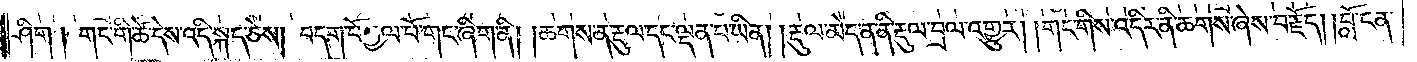ཤིག། གང་གི་ཚེ་དེས་འདི་སྐད་ཅེས། བདག་པོ་རྒྱལ་པོ་གང་ཞིག་ནི། །ཆགས་ན་རྡུལ་དང་ལྡན་པ་ཡིན། །རྡུལ་མེད་ན་ནི་རྡུལ་བྲལ་འགྱུར། གང་གིས་འདིར་ནི་ཆགས་ཞེས་བརྗོད། །བློན་ངན་
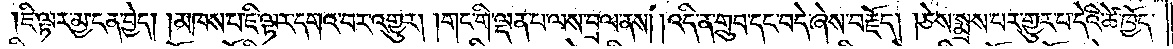ཇི་ལྟར་མྱ་ངན་བྱེད། །མཁས་པ་ཇི་ལྟར་དགའ་བར་འགྱུར། །གང་གི་ལྡན་པ་ལས་བྲལ་ནས། །འདི་ན་གྲུབ་དང་བདེ་ཞེས་བརྗོད། །ཅེས་སྨྲས་པར་གྱུར་པ་དེའི་ཚེ་ཁྱོད་
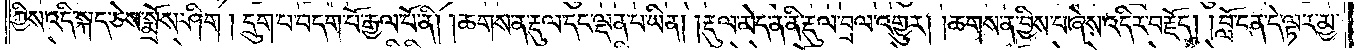ཀྱིས་འདི་སྐད་ཅེས་སྨྲོས་ཤིག །དྲུག་པ་བདག་པོ་རྒྱལ་པོ་ནི། །ཆགས་ན་རྡུལ་དང་ལྡན་པ་ཡིན། །རྡུལ་མེད་ན་ནི་རྡུལ་བྲལ་འགྱུར། །ཆགས་ན་བྱིས་པ་ཞེས་འདིར་བརྗོད། །བློ་ངན་དེ་ལྟར་མྱ་
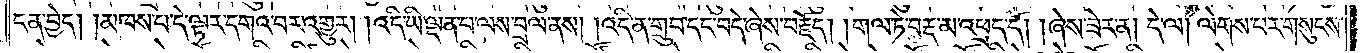ངན་བྱེད། །མཁས་པ་དེ་ལྟར་དགའ་བར་འགྱུར། །འདི་ཡི་ལྡན་པ་ལས་བྲལ་ནས། །འདི་ན་གྲུབ་དང་བདེ་ཞེས་བརྗོད། །གལ་ཏེ་བརྡ་མ་འཕྲད་དོ། །ཞེས་ཟེར་ན། དེ་ལ། ལེགས་པར་གསུངས་
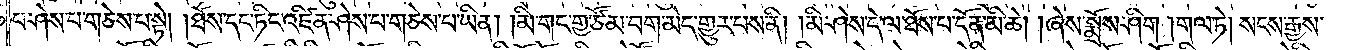པ་ཤེས་པ་གཅེས་པ་སྟེ། །ཐོས་དང་ཏིང་འཛིན་ཤེས་པ་གཅེས་པ་ཡིན། །མི་གང་གྱ་ཙོམ་བག་མེད་གྱུར་པས་ནི། །མི་ཤེས་དེ་ལ་ཐོས་པ་དོན་མི་ཆེ། །ཞེས་སྨྲོས་ཤིག །གལ་ཏེ། སངས་རྒྱས་
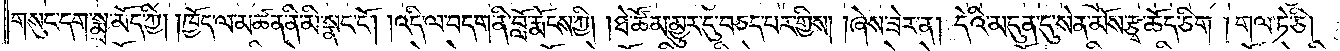གསུང་དག་སྨྲ་མོད་ཀྱི། །ཁྱོད་ལ་མཚན་ནི་མི་སྣང་ངོ༌། །འདི་ལ་བདག་ནི་བློ་རྨོངས་ཀྱི། །ཐེ་ཚོམ་མྱུར་དུ་བཅད་པར་གྱིས། །ཞེས་ཟེར་ན། དེའི་མདུན་དུ་སེན་མོས་རྩྭ་ཆོད་ཅིག །གལ་ཏེ་ཅི།
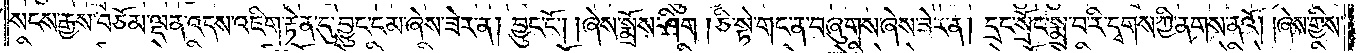སངས་རྒྱས་བཅོམ་ལྡན་འདས་འཇིག་རྟེན་དུ་བྱུང་ངམ་ཞེས་ཟེར་ན། བྱུང་ངོ༌། །ཞེས་སྨྲོས་ཤིག །ཅི་སྟེ་གང་ན་བཞུགས་ཞེས་ཟེར་ན། དྲང་སྲོང་སྨྲ་བ་རི་དྭགས་ཀྱི་ནགས་ནའོ། །ཞེས་གྱིས་
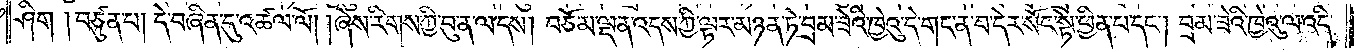ཤིག །བཙུན་པ། དེ་བཞིན་དུ་འཚལ་ལོ། །ཞེས་རིགས་ཀྱི་བུ་ན་ལ་དས། བཅོམ་ལྡན་འདས་ཀྱི་ལྟར་མཉན་ཏེ་བྲམ་ཟེའི་ཁྱེའུ་དེ་གང་ན་བ་དེར་སོང་སྟེ་ཕྱིན་པ་དང༌། བྲམ་ཟེའི་ཁྱེའུ་ལ་འདི་
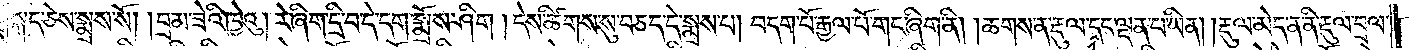སྐད་ཅེས་སྨྲས་སོ། །བྲམ་ཟེའི་ཁྱེའུ། རེ་ཞིག་དྲི་བ་དེ་དག་སྨྲོས་ཤིག །དེས་ཚིགས་སུ་བཅད་དེ་སྨྲས་པ། བདག་པོ་རྒྱལ་པོ་གང་ཞིག་ནི། །ཆགས་ན་རྡུལ་དང་ལྡན་པ་ཡིན། །རྡུལ་མེད་ན་ནི་རྡུལ་བྲལ་
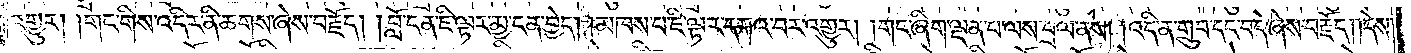འགྱུར། །གང་གིས་འདིར་ནི་ཆགས་ཞེས་བརྗོད། །བློ་ངན་ཇི་ལྟར་མྱ་ངན་བྱེད། །མཁས་པ་ཇི་ལྟར་དགའ་བར་འགྱུར། །གང་ཞིག་ལྡན་པ་ལས་བྲལ་ནས། །འདི་ན་གྲུབ་དང་བདེ་ཞེས་བརྗོད། །དེས་
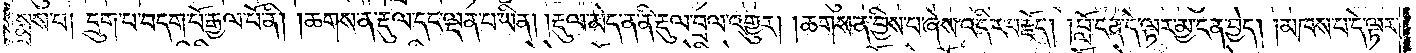སྨྲས་པ། དྲུག་པ་བདག་པོ་རྒྱལ་པོ་ནི། །ཆགས་ན་རྡུལ་དང་ལྡན་པ་ཡིན། །རྡུལ་མེད་ན་ནི་རྡུལ་བྲལ་འགྱུར། །ཆགས་ན་བྱིས་པ་ཞེས་འདིར་བརྗོད། །བློ་ངན་དེ་ལྟར་མྱ་ངན་བྱེད། །མཁས་པ་དེ་ལྟར་
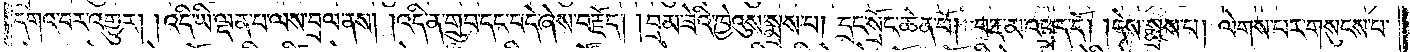དགའ་བར་འགྱུར། །འདི་ཡི་ལྡན་པ་ལས་བྲལ་ནས། །འདི་ན་གྲུབ་དང་བདེ་ཞེས་བརྗོད། །བྲམ་ཟེའི་ཁྱེའུས་སྨྲས་པ། དྲང་སྲོང་ཆེན་པོ། བརྡ་མ་འཕྲད་དོ། །དེས་སྨྲས་པ། ལེགས་པར་གསུངས་པ་
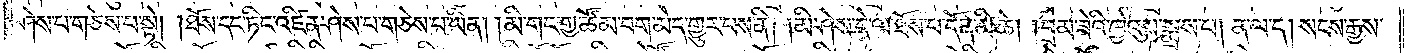ཤེས་པ་གཅེས་པ་སྟེ། །ཐོས་དང་ཏིང་འཛིན་ཤེས་པ་གཅེས་པ་ཡིན། །མི་གང་གྱ་ཚོམ་བག་མེད་གྱུར་པས་ནི། །མི་ཤེས་དེ་ལ་ཐོས་པ་དོན་མི་ཆེ། །བྲམ་ཟེའི་ཁྱེའུས་སྨྲས་པ། ན་ལ་ད། སངས་རྒྱས་
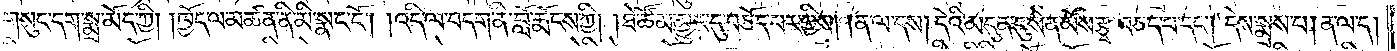གསུང་དག་སྨྲ་མོད་ཀྱི། །ཁྱོད་ལ་མཚན་ནི་མི་སྣང་ངོ༌། །འདི་ལ་བདག་ནི་བློ་རྨོངས་ཀྱི། །ཐེ་ཚོམ་མྱུར་དུ་བཅོད་པར་གྱིས། །ན་ལ་དས། དེའི་མདུན་དུ་སེན་མོས་རྩྭ་བཅད་པ་དང༌། དེས་སྨྲས་པ། ན་ལ་ད།
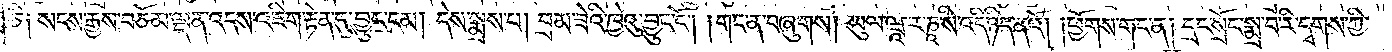ཅི༑ སངས་རྒྱས་བཅོམ་ལྡན་འདས་འཇིག་རྟེན་དུ་བྱུང་ངམ། དེས་སྨྲས་པ། བྲམ་ཟེའི་ཁྱེའུ་བྱུང་ངོ༌། །གང་ན་བཞུགས། ཡུལ་ཝཱ་ར་ཎཱ་སི་འདི་ཉིད་ནའོ། །ཕྱོགས་གང་ན། དྲང་སྲོང་སྨྲ་བ་རི་དྭགས་ཀྱི་
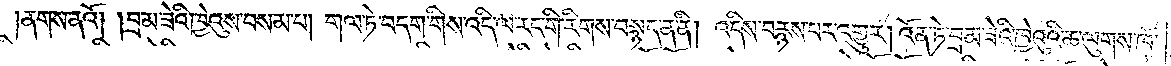ནགས་ནའོ། །བྲམ་ཟེའི་ཁྱེའུས་བསམ་པ། གལ་ཏེ་བདག་གིས་འདི་ལ་རང་གི་རིགས་བསྙད་ན་ནི། འདིས་བརྙས་པར་འགྱུར། འོན་ཏེ་བྲམ་ཟེའི་ཁྱེའུའི་ཆ་ལུགས་ཁོ་
